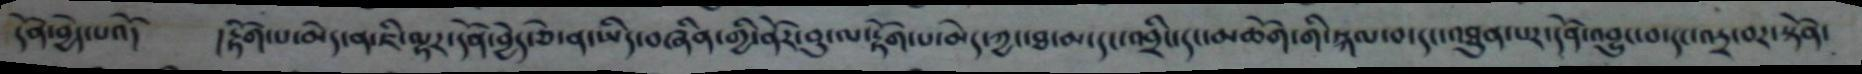དོན་བྱེད་པའོ། །རྟོག་པ་མེད་ན་ཇི་ལྟར་དོན་བྱེད་ཅེ་ན་ཡིད་བཞིན་གྱི་ནོར་བུ་ལ་རྟོག་པ་མེད་ཀྱང་ཐ་མ་དང་འབྲིང་དང་མཆོག་གི་སྐལ་བ་དང་འཐུན་པར་དོན་འབྱུང་བ་དང་འདྲ་བར་སྟོན་
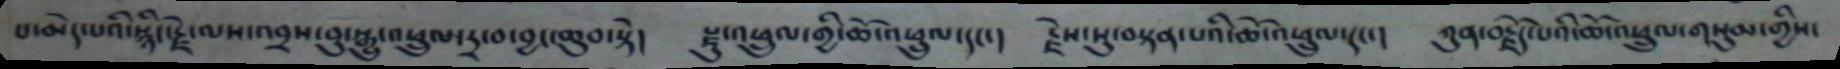པ་མེད་པའི་སྙིང་རྗེ་ལས་འབྲས་བུ་སྒྱུ་འཕྲུལ་དྲ་བ་བྱང་ཆུབ་སྟེ། སྫུ་འཕྲུལ་གྱི་ཆོ་འཕྲུལ་དང་། རྗེས་སུ་བསྟན་པའི་ཆོ་འཕྲུལ་དང་། ཀུན་བརྗོད་པའི་ཆོ་འཕྲུལ་གསུམ་གྱིས་
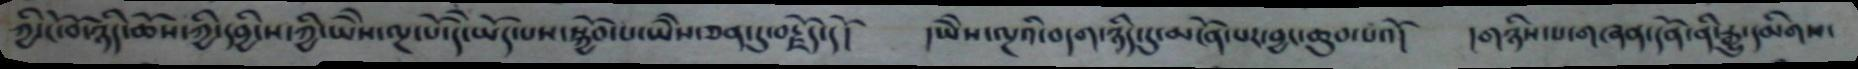ཀྱི་ངོ་བོ་ཉིད་ཆོས་ཀྱི་དབྱིངས་ཀྱི་ཡཻས་ལྔ་པོ་རཻ་ཡོད་པས་སྐྱོབ་པ་ཡཻས་ཅན་དུ་བརྗོད་དོ། །ཡཻས་ལྔའི་བདག་ཉིད་དུ་མངོན་པར་བྱང་ཆུབ་པའོ། །གཉིས་པ་གཞན་དོན་ནི་རྒྱུ་དམིགས་
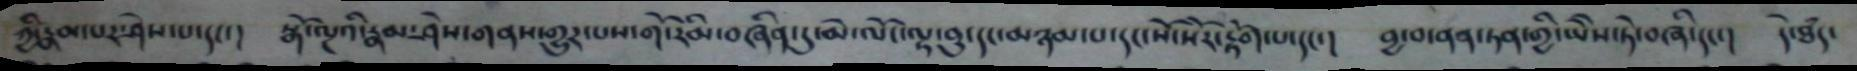ཀྱི་རྣམ་པར་ཤེས་པ་དང་། སྒོ་ལྔའི་རྣམ་ཤེས་གནས་གྱུར་པས་གོ་རིམ་བཞིན་དུ་མེ་ལོང་ལྟ་བུ་དང་མཉམ་པ་དང་སོ་སོར་རྟོག་པ་དང་། བྱ་བ་ནན་ཏན་གྱི་ཡཻས་ཏེ་བཞི་དང་། དེ་ཐཾད་
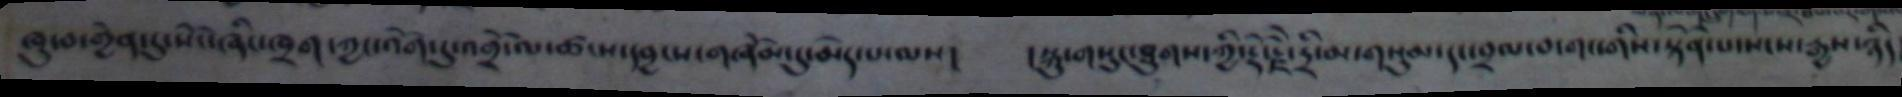ཁུ་བ་གྱེན་དུ་སོང་ཞིང་ཁྲག་ཀྱང་འོག་དུ་འགྲོ་ལ་ཚངས་དབྱངས་གཞོམ་དུ་མེད་པ་ལས། །སྐུ་གསུང་ཐུགས་ཀྱི་རྡོ་རྗེ་དྲི་མ་གསུམ་དང་བྲལ་བ་གང་གིས་སྟོན་པ་སངས་རྒྱས་ཉིད
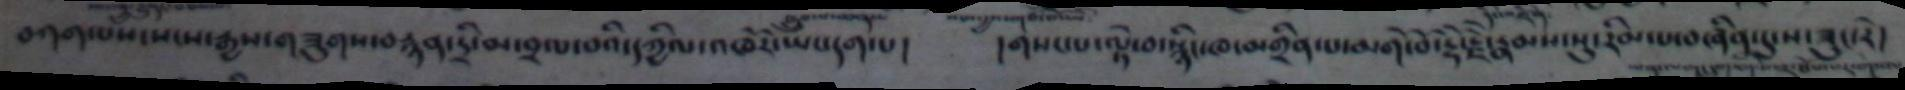བགག་པོས་སངས་རྒྱས་གཟུགས་བརྙན་དྲི་མ་བྲལ་བའི་དཀྱིལ་འཁོར་ཡང་དག་པ།   །གསང་པ་ལྟེ་བ་སྙིང་ཁ་མགྱིན་པ་མགོ་བོ་རྡོ་རྗེ་རྣམས་སུ་རིམ་པ་བཞིན་དུ་ས་ཟུང་རེ།
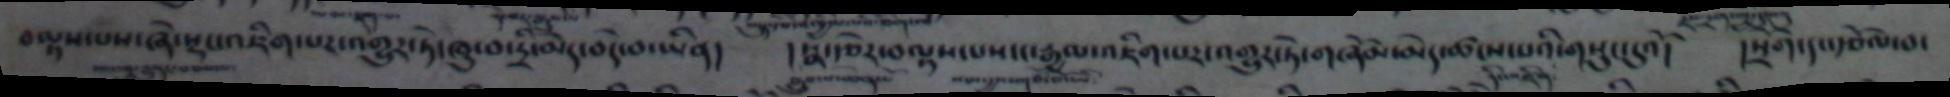བལྟས་པས་ཞེ་སྡང་འཇིག་པར་འགྱུར་ཏེ་ཁུ་བ་དྲི་མེད་བདེ་བ་ཡིན།   ། སྣ་རྩེར་བལྟས་པས་ང་རྒྱལ་འཇིག་པར་འགྱུར་ཏེ་གཞོམ་མེད་ཚངས་པའི་གསུང་དུའོ།   །སྲོག་དང་རྩོལ་བ་
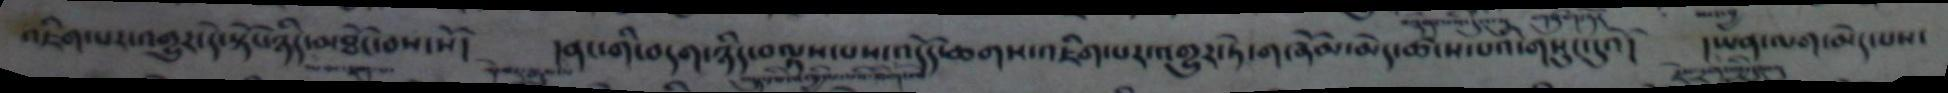འཇིག་པར་འགྱུར་དེ་སྟོང་ཉིད་མཐོང་བས་སོ།   །ནང་གི་བདག་ཉིད་བལྟས་པས་འདོད་ཆགས་འཇིག་པར་འགྱུར་ཏེ་གཞོམ་མེད་ཚངས་པའི་གསུང་དུའོ།    །ཡན་ལག་མེད་པས་
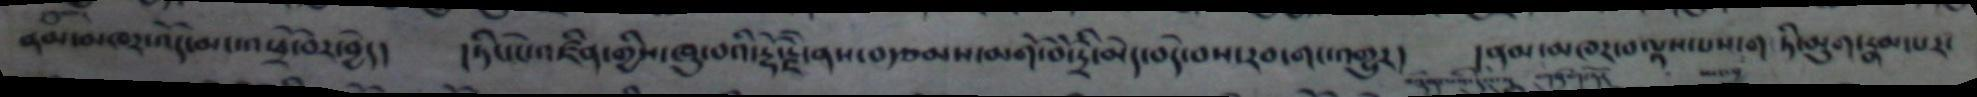ནམ་མཁར་འོ་མང་འཕྲོ་བར་བྱེད།   །ཏིང་ངེ་འཛིན་གྱིས་ཁུ་བའི་རྡོ་རྗེ་ནས་བརྩམས་མགོ་བོ་དྲི་མེད་བདེ་པས་རབ་གང་འགྱུར།   །ནམ་མཁར་བལྟས་པས་གཏི་མུག་རྣམ་པར་
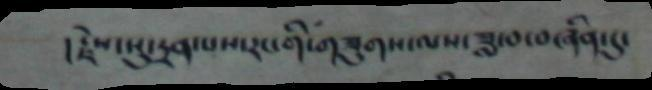།རྗེས་སུ་དྲན་པས་རང་གི་གཟུགས་ལས་ཟླ་བ་བཞིན་དུ་
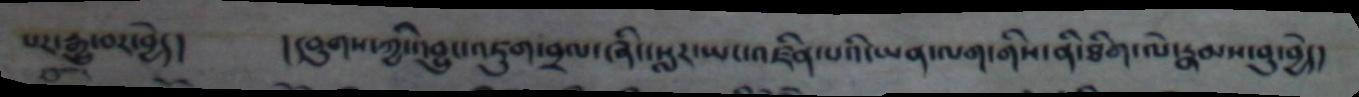པར་རྒྱུ་བར་བྱེད།    ། དབུགས་ཀྱིས་དབྱུང་འཇུག་བྲལ་ཞིང་སླར་ཡང་འཛིན་པའི་ཡན་ལག་གིས་ནི་ཐིག་ལེ་རྣམས་བུ་བྱེད།
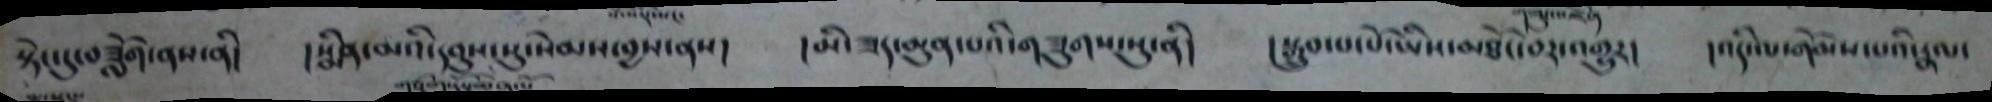སྟེང་དུ་བཟློག་ནས་ནི།  ། སྨིན་མའི་དབུས་སུ་སེམས་བྱས་ནས།  ། མི་ཟད་མུན་པའི་གཟུགས་སུ་ནི།     །སྒྲུབ་པ་པོ་ཡིས་མཐོང་བར་འགྱུར།   །འདི་ལ་གོམས་པའི་རྣལ་
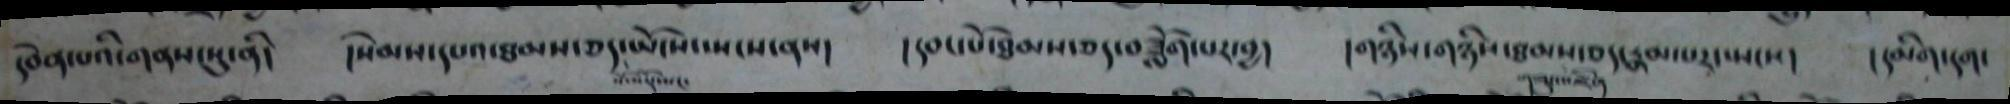དབེན་པའི་གནས་སུ་ནི།  །སེམས་དཔའ་ཐམས་ཅད་ཡོངས་སྤངས་ནས།   ། དབང་པོ་ཐམས་ཅད་བཟློག་པར་བྱ།   ། གཉིས་གཉིས་ཐམས་ཅད་རྣམ་པར་སྤངས།    །དམིག་དག་
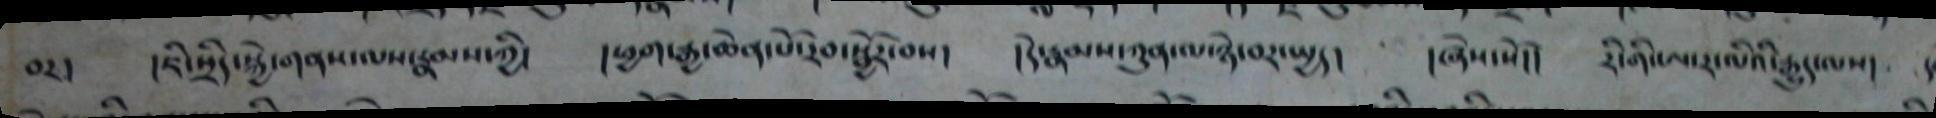བར། །ཇི་སྲིད་སྐྱེ་གནས་ལས་རྣམས་ཀྱི། །ཕྱག་རྒྱ་ཆེན་པོ་རབ་སྦྱོར་བས། །དེ་རྣམས་ཀུན་ལ་ཉེ་བར་སྤྱད། །ཞེས་སོ།། རི་གི་ཨ་ར་ལའི་རྒྱུད་ལས།
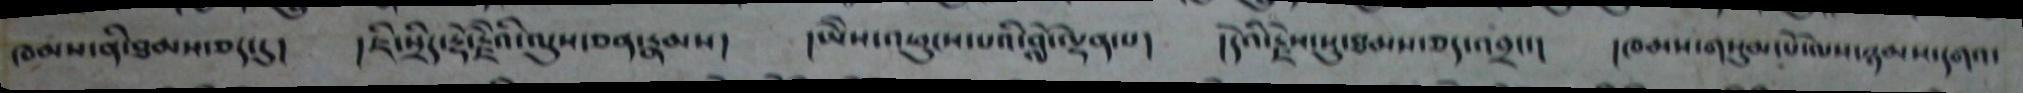ཁམས་ནི་ཐམས་ཅད་དུ། །ཇི་སྲིད་རྡོ་རྗེའི་ལུས་ཅན་རྣམས། །ཡཻས་འཕུངས་པའི་བློ་ལྡན་པ། །དེའི་རྗེས་སུ་ཐམས་ཅད་འབྲང་། །ཁམས་གསུམ་པོ་ལས་ཉམས་དགའ་
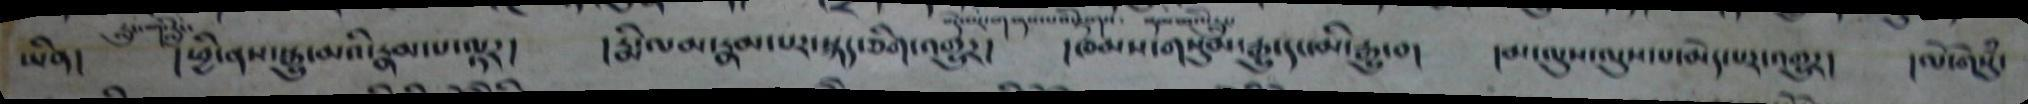ཡིན།  ། ཕྱི་ནས་སྒྱུ་མའི་རྣམ་པར་ལྟར།    ། རྨི་ལམ་རྣམ་པར་སྐད་ཅིག་འགྱུར།   ། ཁམས་གསུམ་རྒྱུ་དང་མི་རྒྱུ་བ།   ། མ་ལུས་ལུས་པ་མེད་པར་འགྱུར།   །ལོ་གསུཾ་
